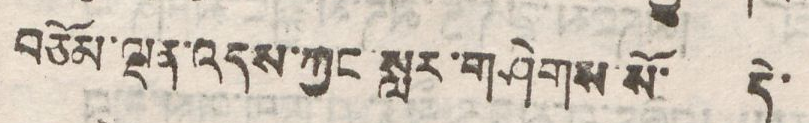བཅོམ་ལྡན་འདས་ཀྱང་སླར་གཤེགས་སོ་ དེ་
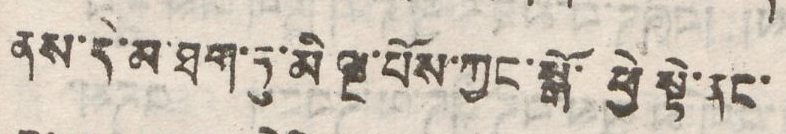ནས་དེ་མ་ཐག་ཏུ་མི ལྔ་པོས་ཀྱང་སྒོ་ཕྱེ སྟེ་ནང་
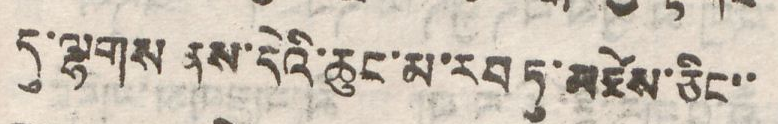དུ་ལྷགས ནས་དེའི་ཆུང་མ་རབ ཏུ་མཛེས་ཅིང་་
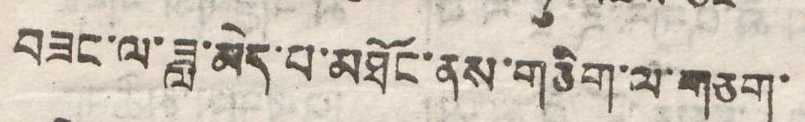བཟང་ལ་ཟླ་མེད་པ་མཐོང་ནས་གཅིག་ལ་གཅག་
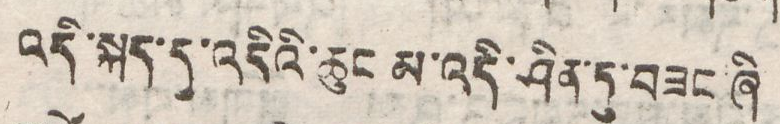འདི་སྐད་དུ་འདིའི་ཆུང མ་འདི་ཤིན་ཏུ་བཟང་ཞི
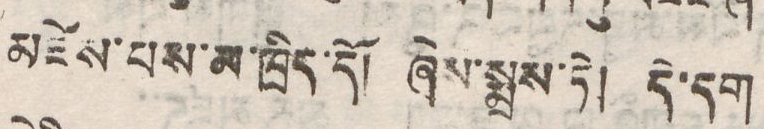མཛེས་པས་མ་ཁྲིད་དོ། ཞེས་སྨྲས་ཏེ། དེ་དག
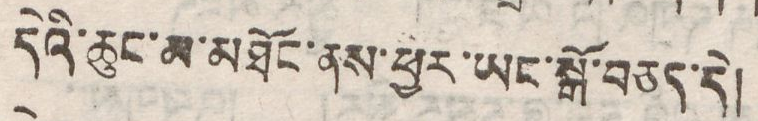དེའི་ཆུང་མ་མཐོང་ནས་ཕྱིར་ཡང་སྒོ་བཅད་དེ།
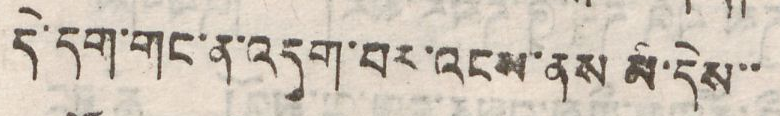དེ་དག་གང་ན་འདུག་བར་འངས་ནས མ་དེས་
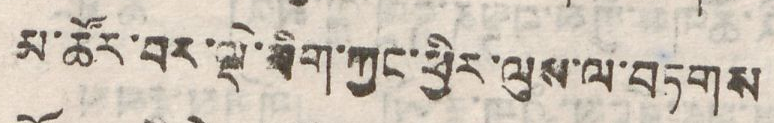མ་ཚོར་བར་ལྡེ་ཐིག་ཀྱང་ཕྱིར་ལུས་ལ་བཏགས
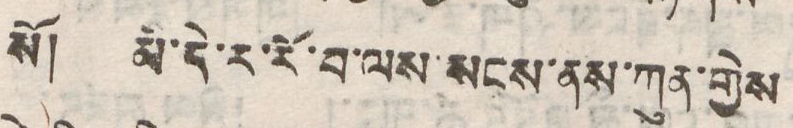སོ། མི་དེ་ར་རོ་བ་ལས་སངས་ནས་ཀུན་གྱེས
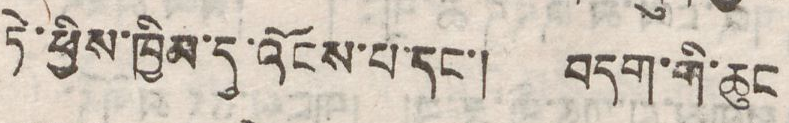ཏེ་ཕྱིས་ཁྱིམ་དུ་འོངས་པ་དང་། བདག་གི་ཆུང
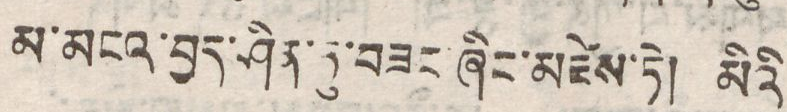མ་མངའ་བྱད་ཤིན་ཏུ་བཟང་ཞིང་མཛེས་ཏེ། མིའི
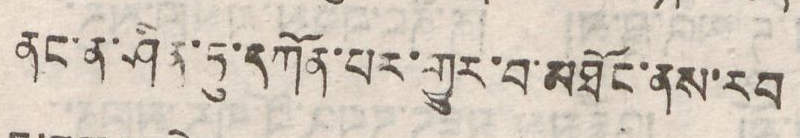ནང་ན་ཤིན་ཏུ་དཀོན་པར་གྱུར་བ་མཐོང་ནས་རབ
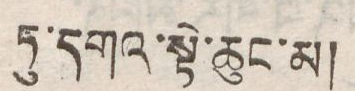ཏུ་དགའ་སྟེ་ཆུང་མ།
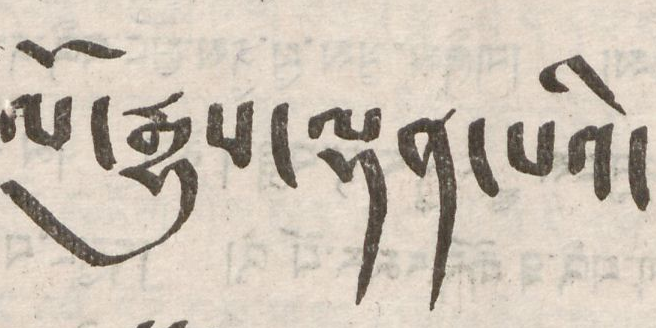ལོ་རྒྱུས་ལྡན་པའི་
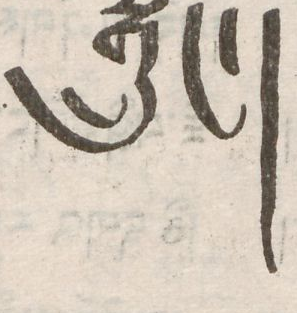སྒྲུང་།
